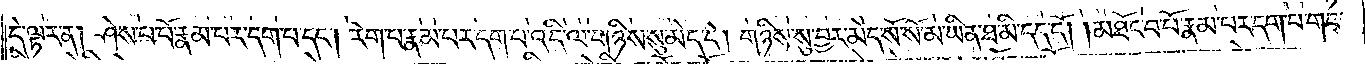དེ་ལྟར་ན། ཤེས་པ་པོ་རྣམ་པར་དག་པ་དང༌། རེག་པ་རྣམ་པར་དག་པ་འདི་ལ་གཉིས་སུ་མེད་དེ། གཉིས་སུ་བྱར་མེད་སོ་སོ་མ་ཡིན་ཐ་མི་དད་དོ། །མཐོང་བ་པོ་རྣམ་པར་དག་པ་གང་
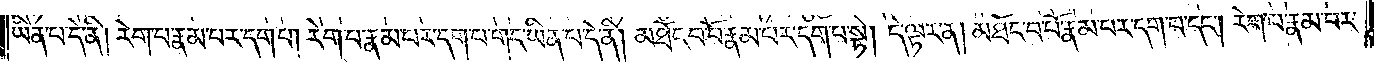ཡིན་པ་དེ་ནི། རེག་པ་རྣམ་པར་དག་པ། རེག་པ་རྣམ་པར་དག་པ་གང་ཡིན་པ་དེ་ནི། མཐོང་བ་པོ་རྣམ་པར་དག་པ་སྟེ། དེ་ལྟར་ན། མཐོང་བ་པོ་རྣམ་པར་དག་པ་དང༌། རེག་པ་རྣམ་པར་
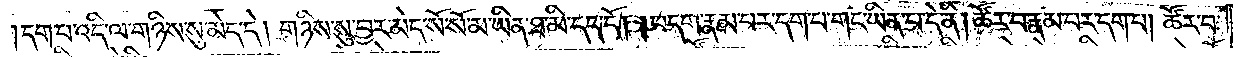དག་པ་འདི་ལ་གཉིས་སུ་མེད་དེ། གཉིས་སུ་བྱར་མེད་སོ་སོ་མ་ཡིན་ཐ་མི་དད་དོ། །བདག་རྣམ་པར་དག་པ་གང་ཡིན་པ་དེ་ནི། ཚོར་བ་རྣམ་པར་དག་པ། ཚོར་བ་
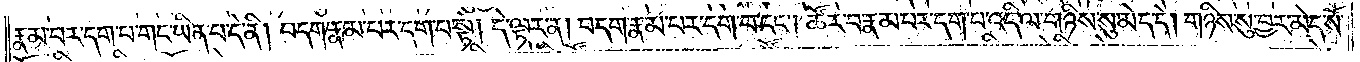རྣམ་པར་དག་པ་གང་ཡིན་པ་དེ་ནི། བདག་རྣམ་པར་དག་པ་སྟེ། དེ་ལྟར་ན། བདག་རྣམ་པར་དག་པ་དང༌། ཚོར་བ་རྣམ་པར་དག་པ་འདི་ལ་གཉིས་སུ་མེད་དེ། གཉིས་སུ་བྱར་མེད་སོ་
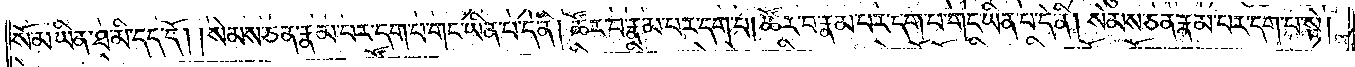སོ་མ་ཡིན་ཐ་མི་དད་དོ། །སེམས་ཅན་རྣམ་པར་དག་པ་གང་ཡིན་པ་དེ་ནི། ཚོར་བ་རྣམ་པར་དག་པ། ཚོར་བ་རྣམ་པར་དག་པ་གང་ཡིན་པ་དེ་ནི། སེམས་ཅན་རྣམ་པར་དག་པ་སྟེ།
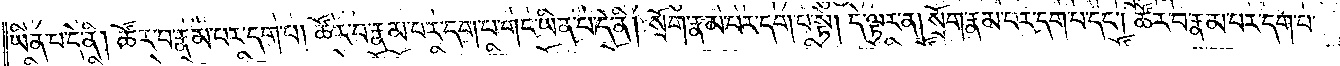ཡིན་པ་དེ་ནི། ཚོར་བ་རྣམ་པར་དག་པ། ཚོར་བ་རྣམ་པར་དག་པ་གང་ཡིན་པ་དེ་ནི། སྲོག་རྣམ་པར་དག་པ་སྟེ། དེ་ལྟར་ན། སྲོག་རྣམ་པར་དག་པ་དང༌། ཚོར་བ་རྣམ་པར་དག་པ་
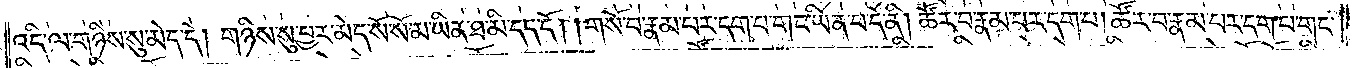འདི་ལ་གཉིས་སུ་མེད་དེ། གཉིས་སུ་བྱར་མེད་སོ་སོ་མ་ཡིན་ཐ་མི་དད་དོ། །གསོ་བ་རྣམ་པར་དག་པ་གང་ཡིན་པ་དེ་ནི། ཚོར་བ་རྣམ་པར་དག་པ། ཚོར་བ་རྣམ་པར་དག་པ་གང་
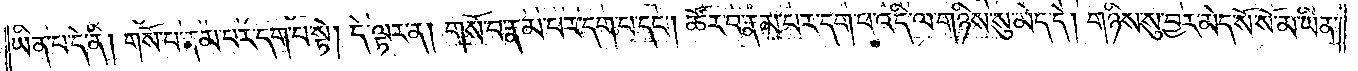ཡིན་པ་དེ་ནི། གསོ་བ་རྣམ་པར་དག་པ་སྟེ། དེ་ལྟར་ན། གསོ་བ་རྣམ་པར་དག་པ་དང༌། ཚོར་བ་རྣམ་པར་དག་པ་འདི་ལ་གཉིས་སུ་མེད་དེ། གཉིས་སུ་བྱར་མེད་སོ་སོ་མ་ཡིན་
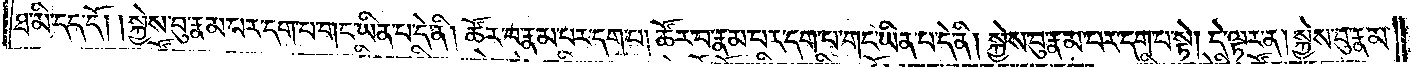ཐ་མི་དད་དོ། །སྐྱེས་བུ་རྣམ་པར་དག་པ་གང་ཡིན་པ་དེ་ནི། ཚོར་བ་རྣམ་པར་དག་པ། ཚོར་བ་རྣམ་པར་དག་པ་གང་ཡིན་པ་དེ་ནི། སྐྱེས་བུ་རྣམ་པར་དག་པ་སྟེ། དེ་ལྟར་ན། སྐྱེས་བུ་རྣམ་
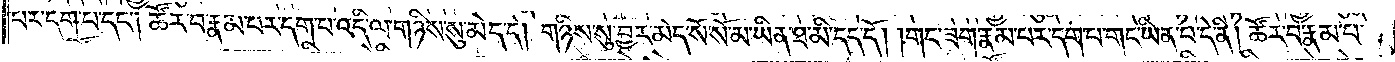པར་དག་པ་དང༌། ཚོར་བ་རྣམ་པར་དག་པ་འདི་ལ་གཉིས་སུ་མེད་དེ། གཉིས་སུ་བྱར་མེད་སོ་སོ་མ་ཡིན་ཐ་མི་དད་དོ། །གང་ཟག་རྣམ་པར་དག་པ་གང་ཡིན་པ་དེ་ནི། ཚོར་བ་རྣམ་པར་
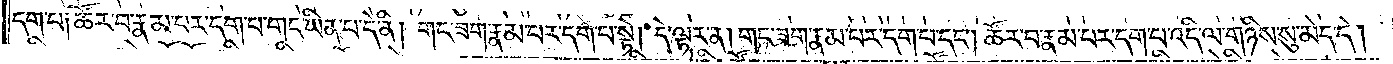དག་པ། ཚོར་བ་རྣམ་པར་དག་པ་གང་ཡིན་པ་དེ་ནི། གང་ཟག་རྣམ་པར་དག་པ་སྟེ། དེ་ལྟར་ན། གང་ཟག་རྣམ་པར་དག་པ་དང༌། ཚོར་བ་རྣམ་པར་དག་པ་འདི་ལ་གཉིས་སུ་མེད་དེ།
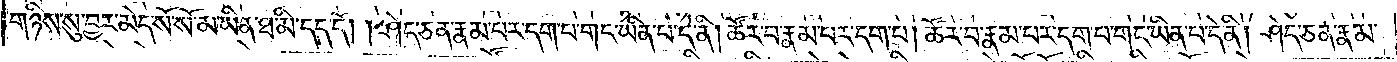གཉིས་སུ་བྱར་མེད་སོ་སོ་མ་ཡིན་ཐ་མི་དད་དོ། །ཤེད་ཅན་རྣམ་པར་དག་པ་གང་ཡིན་པ་དེ་ནི། ཚོར་བ་རྣམ་པར་དག་པ། ཚོར་བ་རྣམ་པར་དག་པ་གང་ཡིན་པ་དེ་ནི། ཤེད་ཅན་རྣམ་
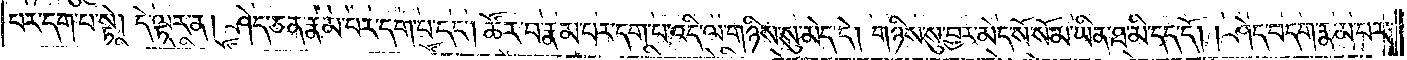པར་དག་པ་སྟེ། དེ་ལྟར་ན། ཤེད་ཅན་རྣམ་པར་དག་པ་དང༌། ཚོར་བ་རྣམ་པར་དག་པ་འདི་ལ་གཉིས་སུ་མེད་དེ། གཉིས་སུ་བྱར་མེད་སོ་སོ་མ་ཡིན་ཐ་མི་དད་དོ། །ཤེད་བདག་རྣམ་པར་
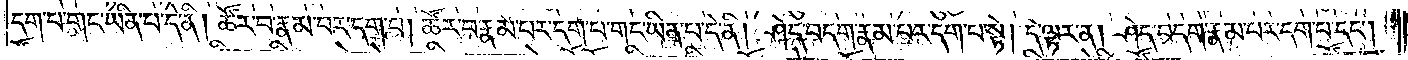དག་པ་གང་ཡིན་པ་དེ་ནི། ཚོར་བ་རྣམ་པར་དག་པ། ཚོར་བ་རྣམ་པར་དག་པ་གང་ཡིན་པ་དེ་ནི། ཤེད་བདག་རྣམ་པར་དག་པ་སྟེ། དེ་ལྟར་ན། ཤེད་བདག་རྣམ་པར་དག་པ་དང༌།
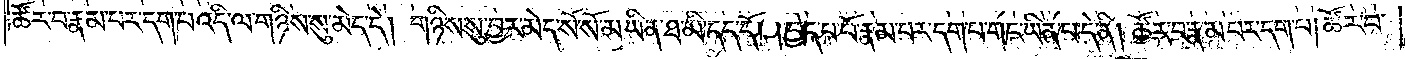ཚོར་བ་རྣམ་པར་དག་པ་འདི་ལ་གཉིས་སུ་མེད་དེ། གཉིས་སུ་བྱར་མེད་སོ་སོ་མ་ཡིན་ཐ་མི་དད་དོ། །བྱེད་པ་པོ་རྣམ་པར་དག་པ་གང་ཡིན་པ་དེ་ནི། ཚོར་བ་རྣམ་པར་དག་པ། ཚོར་བ་
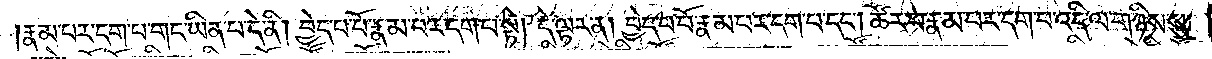རྣམ་པར་དག་པ་གང་ཡིན་པ་དེ་ནི། བྱེད་པ་པོ་རྣམ་པར་དག་པ་སྟེ། དེ་ལྟར་ན། བྱེད་པ་པོ་རྣམ་པར་དག་པ་དང༌། ཚོར་བ་རྣམ་པར་དག་པ་འདི་ལ་གཉིས་སུ་
